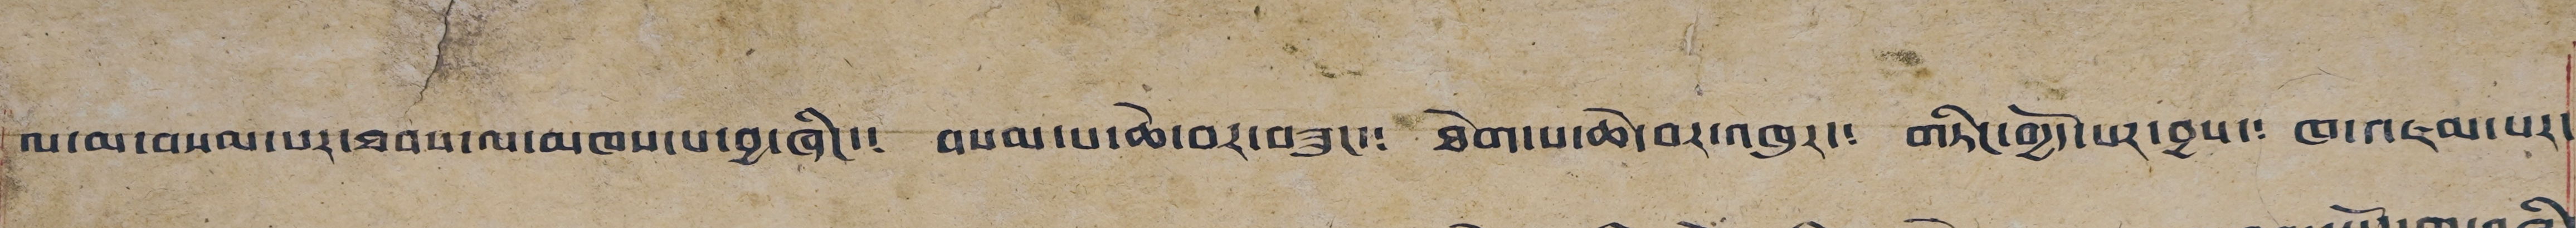ལ་མ་བསམ་པར་ཐབས་ལ་མཁས་པ་བྱ་ཞིང་༴ བསམ་པ་ཆེ་བར་བཟུང་༴ ཐེག་པ་ཆེ་བར་འཁུར་༴ གཏིང་གྱོད་པར་བྱས་༴ ཁ་འཇམ་པར་
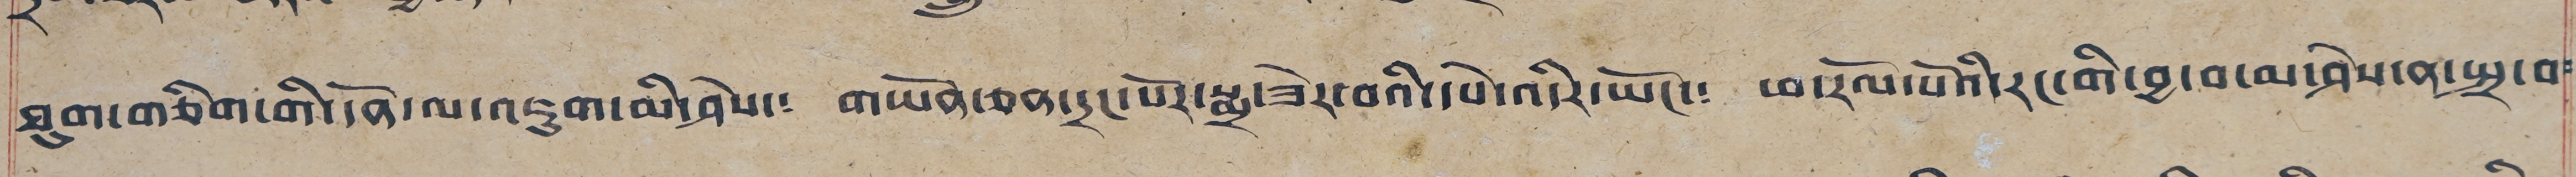ཐུག་གཅིག་གི་དོན་ལ་འཇུག་མི་ཤེས་༴ གཡོན་ཅན་དྲང་པོར་སྨྲ་ཟེར་བའི་དཔེ་འདིར་ཡོང་༴ ཕ་རོལ་པོའི་རང་གི་བྱ་བ་མ་ཤེས་ན་སྤྲ་བ༴
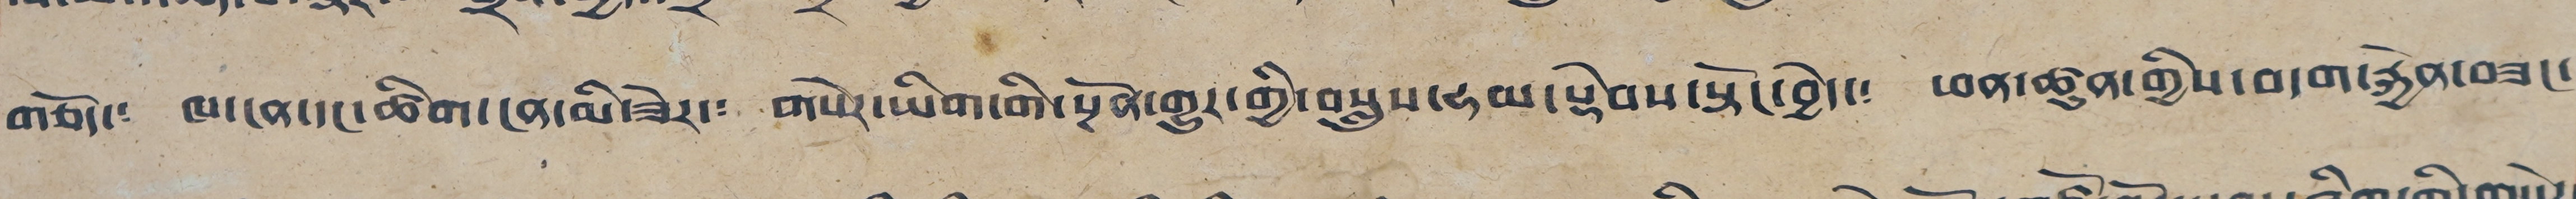གཅོད་༴ ཁ་ངན་དང་ཚིག་ངན་མི་ཟེར་༴ གསེར་ཡིག་གི་སྔོན་གྱུར་གྱི་བསླུས་ཧམ་སྡེབས་སྟོང་བྱེད་༴ ཕན་ཚུན་གྱིས་བདག་རྐྱེན་བཟང་
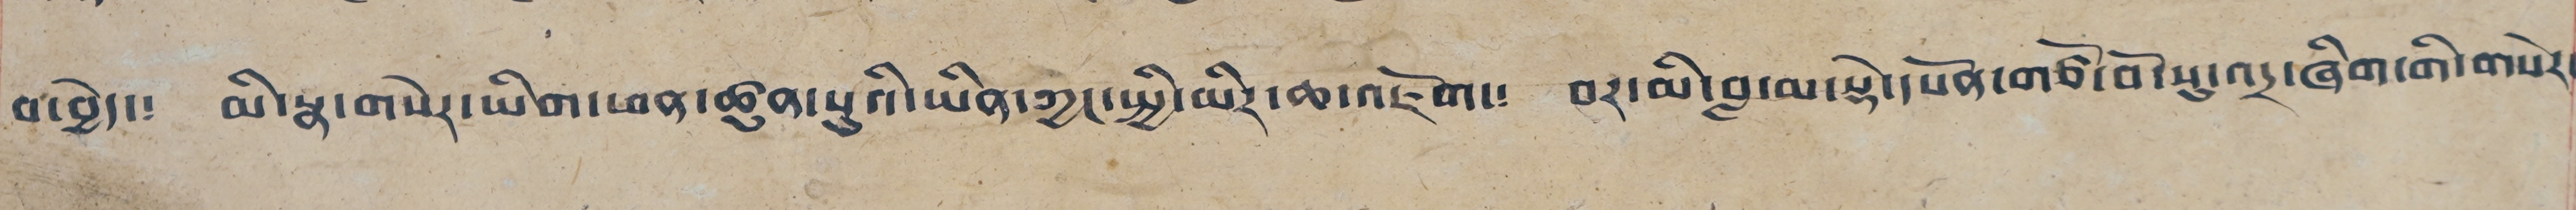བ་བྱེད་༴ མི་སྣ་གསེར་ཡིག་ཕན་ཚུན་སུའི་ཡིན་ཀྱང་སྤྱི་མིར་ཆ་འཇོག་༴ བར་མི་བླ་མ་སྟེ་དཔོན་གཙོ་བོ་སུ་འདྲ་ཞིག་གི་གསེར་
